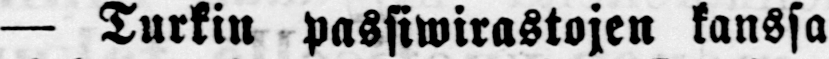— Turkin passiwirastojen kanssa
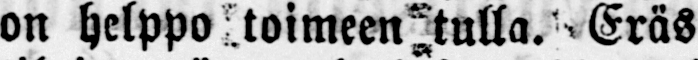on helppo toimeen tulla. Eräs englan-
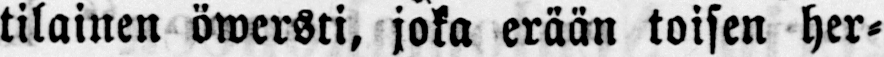tilainen öwersri, joka erään toisen her-
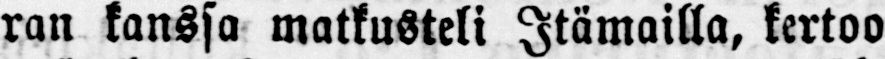ran kanssa matkusteli Itämailla, kertoo
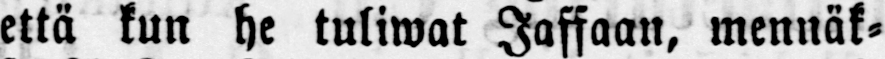että kun he tuliwat Jaffaan, mennäk-
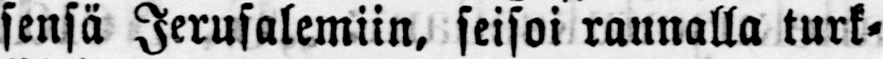sensä Jerusalemiin, seisoi rannalla turk-
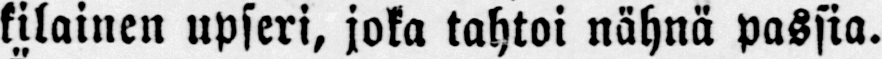kilainen upseri, joka tahtoi nähnä passia.
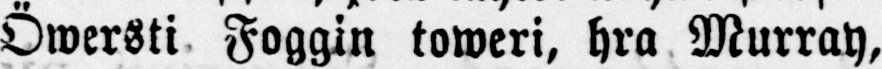Öwersti Foggin toweri, hra Murray,
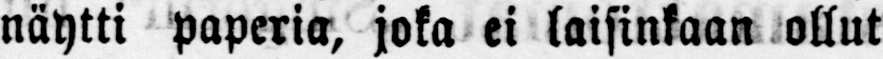näytti paperia, joka ei laisinkaan ollut
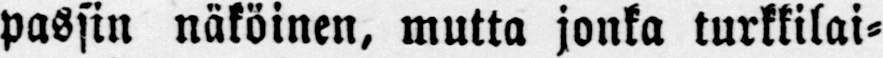passin näköinen, mutta jonka turkkilai-
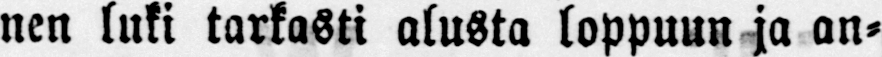nen luki tarkasti alusta loppuun ja an-
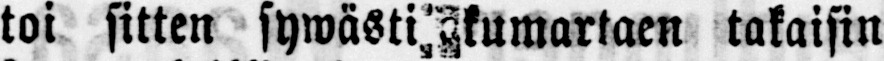toi sitten sywästi kumartaen takaisin
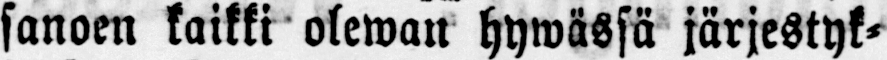sanoen kaikki olewan hywässä järjestyk-
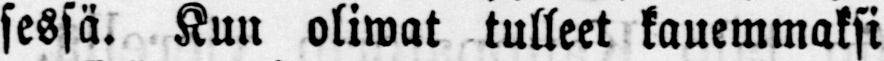sessä. Kun oliwat tulleet kauemmaksi
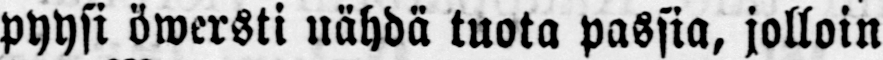pyysi öwersti nähdä tuota passia, jolloin
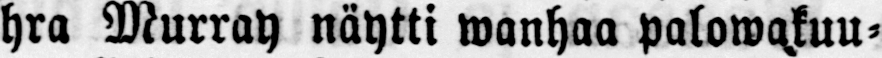hra Murray näytti wanhaa palowakuu-
